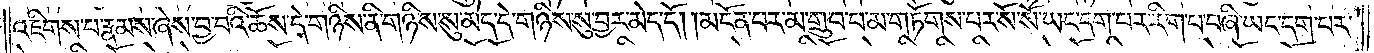འཇིགས་པ་རྣམས་ཞེས་བྱ་བའི་ཆོས་དེ་གཉིས་ནི་གཉིས་སུ་མེད་དེ་གཉིས་སུ་བྱར་མེད་དོ། །མངོན་པར་མ་གྲུབ་པ་མ་གཏོགས་པར་སོ་སོ་ཡང་དག་པར་རིག་པ་བཞི་ཡང་དག་པར་
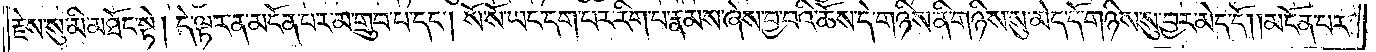རྗེས་སུ་མི་མཐོང་སྟེ། དེ་ལྟར་ན་མངོན་པར་མ་གྲུབ་པ་དང༌། སོ་སོ་ཡང་དག་པར་རིག་པ་རྣམས་ཞེས་བྱ་བའི་ཆོས་དེ་གཉིས་ནི་གཉིས་སུ་མེད་དེ་གཉིས་སུ་བྱར་མེད་དོ། །མངོན་པར་
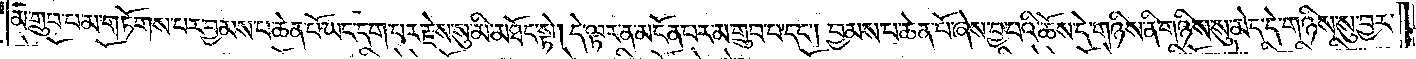མ་གྲུབ་པ་མ་གཏོགས་པར་བྱམས་པ་ཆེན་པོ་ཡང་དག་པར་རྗེས་སུ་མི་མཐོང་སྟེ། དེ་ལྟར་ན་མངོན་པར་མ་གྲུབ་པ་དང༌། བྱམས་པ་ཆེན་པོ་ཞེས་བྱ་བའི་ཆོས་དེ་གཉིས་ནི་གཉིས་སུ་མེད་དེ་གཉིས་སུ་བྱར་
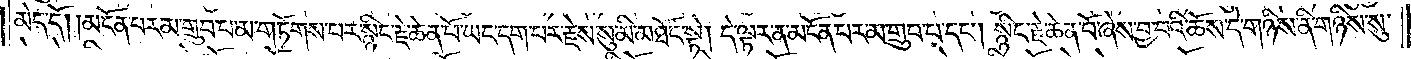མེད་དོ། །མངོན་པར་མ་གྲུབ་པ་མ་གཏོགས་པར་སྙིང་རྗེ་ཆེན་པོ་ཡང་དག་པར་རྗེས་སུ་མི་མཐོང་སྟེ། དེ་ལྟར་ན་མངོན་པར་མ་གྲུབ་པ་དང༌། སྙིང་རྗེ་ཆེན་པོ་ཞེས་བྱ་བའི་ཆོས་དེ་གཉིས་ནི་གཉིས་སུ་
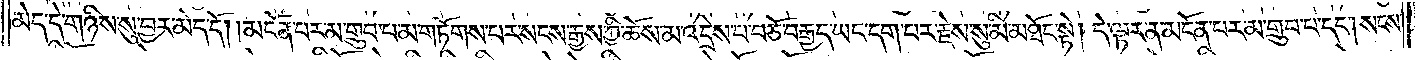མེད་དེ་གཉིས་སུ་བྱར་མེད་དོ། །མངོན་པར་མ་གྲུབ་པ་མ་གཏོགས་པར་སངས་རྒྱས་ཀྱི་ཆོས་མ་འདྲེས་པ་བཅོ་བརྒྱད་ཡང་དག་པར་རྗེས་སུ་མི་མཐོང་སྟེ།དེ་ལྟར་ན་མངོན་པར་མ་གྲུབ་པ་དང༌། སངས་
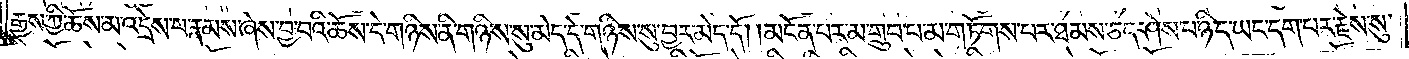རྒྱས་ཀྱི་ཆོས་མ་འདྲེས་པ་རྣམས་ཞེས་བྱ་བའི་ཆོས་དེ་གཉིས་ནི་གཉིས་སུ་མེད་དེ་གཉིས་སུ་བྱར་མེད་དོ། །མངོན་པར་མ་གྲུབ་པ་མ་གཏོགས་པར་ཐམས་ཅད་ཤེས་པ་ཉིད་ཡང་དག་པར་རྗེས་སུ་
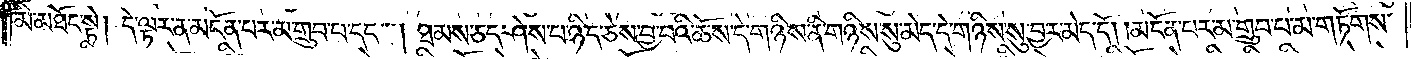མི་མཐོང་སྟེ། དེ་ལྟར་ན་མངོན་པར་མ་གྲུབ་པ་དང༌། ཐམས་ཅད་ཤེས་པ་ཉིད་ཅེས་བྱ་བའི་ཆོས་དེ་གཉིས་ནི་གཉིས་སུ་མེད་དེ་གཉིས་སུ་བྱར་མེད་དོ། །མངོན་པར་མ་གྲུབ་པ་མ་གཏོགས་
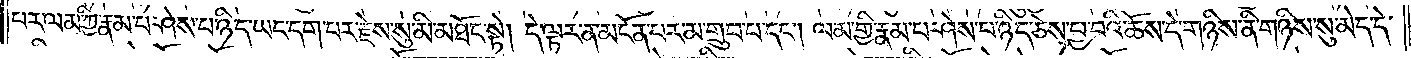པར་ལམ་གྱི་རྣམ་པ་ཤེས་པ་ཉིད་ཡང་དག་པར་རྗེས་སུ་མི་མཐོང་སྟེ། དེ་ལྟར་ན་མངོན་པར་མ་གྲུབ་པ་དང༌། ལམ་གྱི་རྣམ་པ་ཤེས་པ་ཉིད་ཅེས་བྱ་བའི་ཆོས་དེ་གཉིས་ནི་གཉིས་སུ་མེད་དེ་
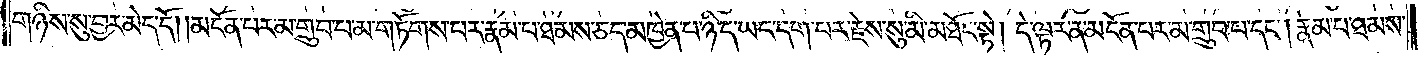གཉིས་སུ་བྱར་མེད་དོ། །མངོན་པར་མ་གྲུབ་པ་མ་གཏོགས་པར་རྣམ་པ་ཐམས་ཅད་མཁྱེན་པ་ཉིད་ཡང་དག་པར་རྗེས་སུ་མི་མཐོང་སྟེ། དེ་ལྟར་ན་མངོན་པར་མ་གྲུབ་པ་དང༌། རྣམ་པ་ཐམས་
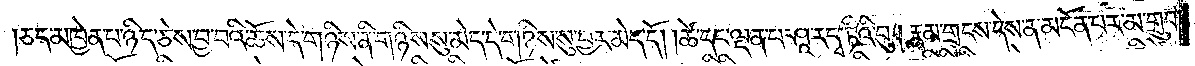ཅད་མཁྱེན་པ་ཉིད་ཅེས་བྱ་བའི་ཆོས་དེ་གཉིས་ནི་གཉིས་སུ་མེད་དེ་གཉིས་སུ་བྱར་མེད་དོ། །ཚེ་དང་ལྡན་པ་ཤཱ་ར་དྭ་ཏིའི་བུ། རྣམ་གྲངས་དེས་ན། མངོན་པར་མ་གྲུབ་
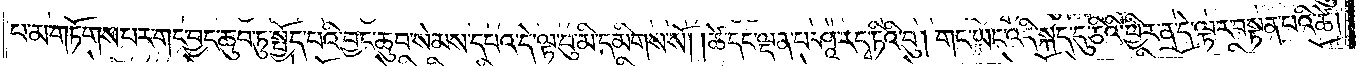པ་མ་གཏོགས་པར་གང་བྱང་ཆུབ་ཏུ་སྤྱོད་པའི་བྱང་ཆུབ་སེམས་དཔའ་དེ་ལྟ་བུ་མི་དམིགས་སོ། །ཚེ་དང་ལྡན་པ་ཤཱ་ར་དྭ་ཏིའི་བུ། གང་ཡང་འདི་སྐད་དུ་ཅིའི་ཕྱིར་ན་དེ་ལྟར་བསྟན་པའི་ཚེ།
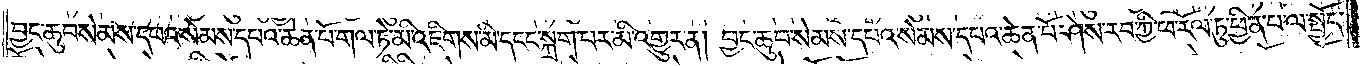བྱང་ཆུབ་སེམས་དཔའ་སེམས་དཔའ་ཆེན་པོ་གལ་ཏེ་མི་འཇིགས་མི་དངང་སྐྲག་པར་མི་འགྱུར་ན། བྱང་ཆུབ་སེམས་དཔའ་སེམས་དཔའ་ཆེན་པོ་ཤེས་རབ་ཀྱི་ཕ་རོལ་ཏུ་ཕྱིན་པ་ལ་སྤྱོད་
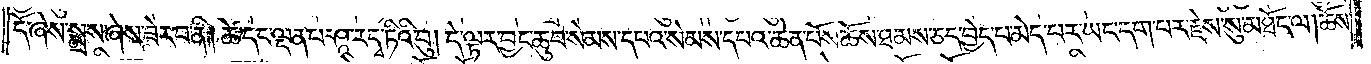དོ་ཞེས་སྨྲས་ཞེས་ཟེར་བ་ནི། ཚེ་དང་ལྡན་པ་ཤཱ་ར་དྭ་ཏིའི་བུ། དེ་ལྟར་བྱང་ཆུབ་སེམས་དཔའ་སེམས་དཔའ་ཆེན་པོས་ཆོས་ཐམས་ཅད་བྱེད་པ་མེད་པར་ཡང་དག་པར་རྗེས་སུ་མཐོང་ལ། ཆོས་
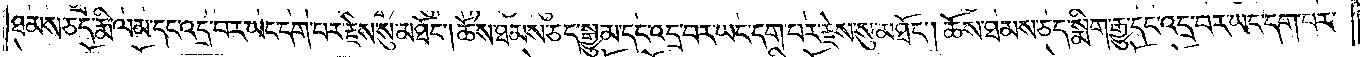ཐམས་ཅད་རྨི་ལམ་དང་འདྲ་བར་ཡང་དག་པར་རྗེས་སུ་མཐོང༌། ཆོས་ཐམས་ཅད་སྒྱུ་མ་དང་འདྲ་བར་ཡང་དག་པར་རྗེས་སུ་མཐོང༌། ཆོས་ཐམས་ཅད་སྨིག་རྒྱུ་དང་འདྲ་བར་ཡང་དག་པར་
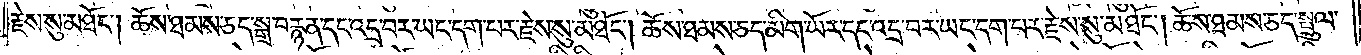རྗེས་སུ་མཐོང༌། ཆོས་ཐམས་ཅད་སྒྲ་བརྙན་དང་འདྲ་བར་ཡང་དག་པར་རྗེས་སུ་མཐོང༌། ཆོས་ཐམས་ཅད་མིག་ཡོར་དང་འདྲ་བར་ཡང་དག་པར་རྗེས་སུ་མཐོང༌། ཆོས་ཐམས་ཅད་སྤྲུལ་
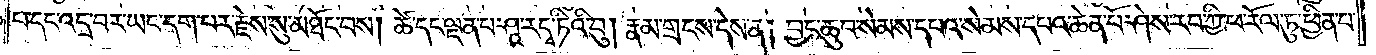པ་དང་འདྲ་བར་ཡང་དག་པར་རྗེས་སུ་མཐོང་བས། ཚེ་དང་ལྡན་པ་ཤཱ་ར་དྭ་ཏིའི་བུ། རྣམ་གྲངས་དེས་ན། བྱང་ཆུབ་སེམས་དཔའ་སེམས་དཔའ་ཆེན་པོ་ཤེས་རབ་ཀྱི་ཕ་རོལ་ཏུ་ཕྱིན་པ་
